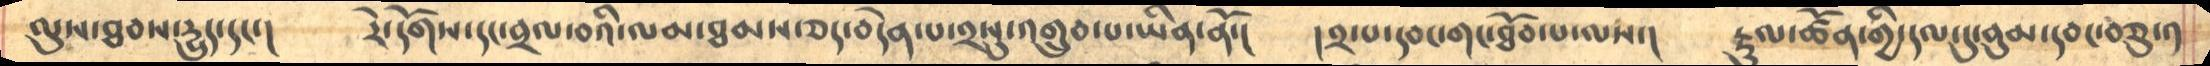ལུས་ཐབས་དྱུད་དང་།       རེ་དོགས་དང་བྲལ་བའི་ལམ་ཐམས་ཅད་བདེན་པ་༢སུ་འགྲུབ་པ་ཡིན་ནོ་།      །༢་པ་དབང་གང་ཐོབ་པ་ལས་།     རྟུལ་ཚོན་གྱི་དལ་དུ་བུམ་དབང་བཅུ་༡
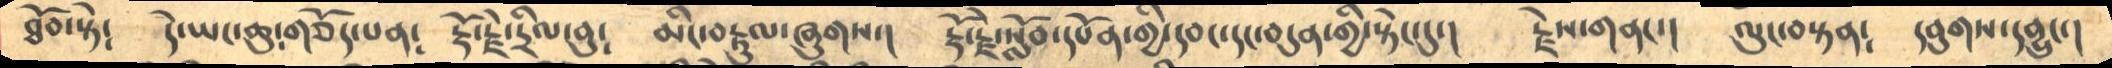ཐོབ་སྟེ༴       དེ་ཡང་ཆུ༴ གཅོད་པན༴     རྡོ་རྗེ་དྲིལ་བུ༴      མིང་བརྟུལ་ཞུགས་།     རྡོ་རྗེ་སློབ་དཔོན་གྱི་དབང་དང་བདུན་གྱི་སྟེང་དུ་།    རྗེས་གནང་།    ལུང་བསྟན༴   དབུགས་དབྱུང་།
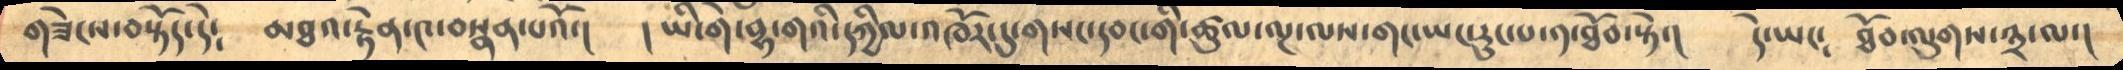གཟེངས་བསྟོད་དེ༴        མཐའ་རྟེན་༤་བསྣན་པའོ་།     །ཡི་གེ་བྷ་གའི་དཀྱིལ་འཁོར་དུ་གསང་དབང་གི་ཚུལ་ལྔ་ལས་གང་ཡང་རུང་པ་༡་ཐོབ་སྟེ་།     དེ་ཡང༴    ཐོབ་ལུགས་༣་ལ་།
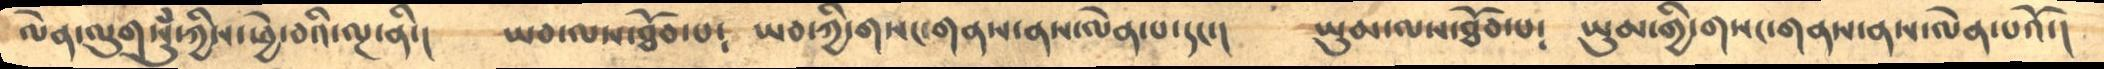ལེན་ལུགསུཾ་ཀྱིས་ཕྱེ་བའི་ལྔ་ནི་།      ཡབ་ལས་ཐོབ་པ༴   ཡབ་ཀྱི་གསང་གནས་ནས་ལེན་པ་དང་།    ཡུམ་ལས་ཐོབ་པ༴   ཡུམ་གྱི་གསང་གནས་ནས་ལེན་པའོ་།
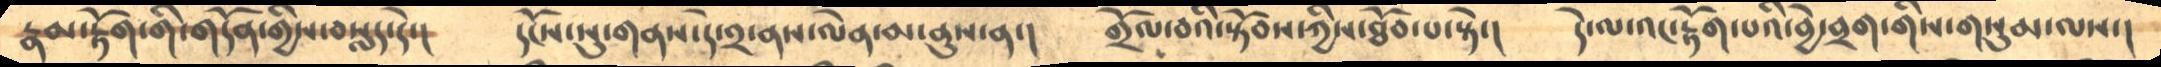རྣམ་རྟོག་གི་གདོན་གྱིས་བསླད་དེ་།    དངོས་སུ་གནས་དེ་༢་ནས་ལེན་མ་ནུས་ན་།     གྲོལ་བའི་སྟོབས་ཀྱིས་ཐོབ་པ་སྟེ་།    དེ་ལ་འང་རྟོག་པའི་བྱེ་བྲག་གིས་གསུམ་ལས་།
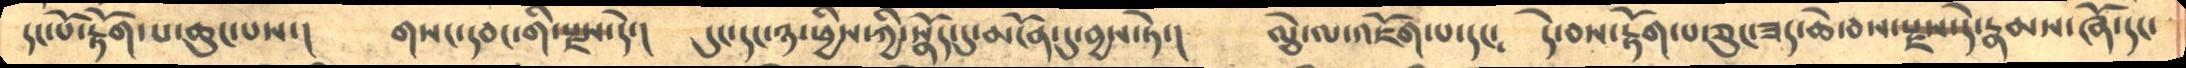དང་པོ་རྟོག་པ་ཆུང་པས་།    གསང་དབང་གི་རྫས་དེ་།     དུང་དང་ཉ་ཕྱིས་ཀྱི་སྣོད་དུ་མངོན་དུ་བྱས་ཏེ་།   ལྕེ་ལ་འཇོག་པ་དང༴    དེ་བས་རྟོག་པ་ཅུང་ཟད་ཆེ་བས་རྫས་དེ་རྣམས་ཞོ་དང་
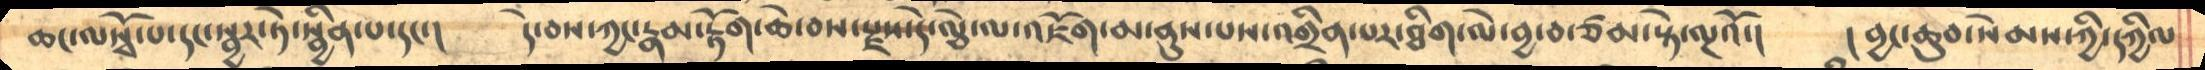ཆང་ལསྭོ་པ་དང་སྦྱར་ཏེ་སྦྱིན་པ་དང་།   དེ་བས་ཀྱང་རྣམ་རྟོག་ཆེ་བས་རྫས་དེ་ལྕེ་ལ་འཇོག་མ་ནུས་པས་འགྲིན་པར་ཐིག་ལེ་བྱ་བ་ཙམ་སྟེ་ལྔའོ་།    །བྱང་ཆུབ་སེམས་ཀྱི་དཀྱིལ
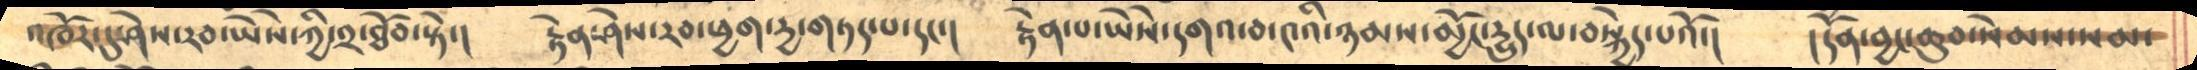འཁོར་དུ་ཤེས་རབ་ཡེེས་ཀྱི་༢་ཐོབ་སྟེ་།    རྟེན་ཤེས་རབ་ཕྱག་དྱ་གཏད་པ་དང་།    རྟེན་པ་ཡཻས་དགའ་བ་༤འི་ཉམས་མྱོང་དྱུད་ལ་བསྐྱེད་པའོ་།   །དོན་བྱང་ཆུབ་སེམས་སམ་
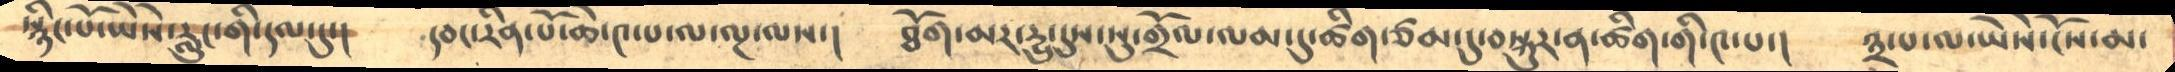སྙིང་པོ་ཡཻས་རླུང་གི་དལ་དུ་།       དབང་རིན་པོ་ཆེ་༤་པ་ལ་ལྔ་ལས་།     ཐོག་མར་དྱུ་དུས་སུ་གྲོལ་ལམ་དུ་ཚིག་ཙམ་དུ་བསྐུར་ན་ཚིག་གི་༤་པ་།   ༣་པ་ལ་ཡཻས་ངོས་མ་
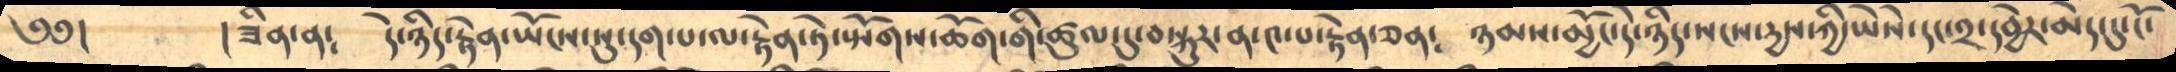༄༅།        །ཟིན་ན༴       དེ་ཉིད་རྟེན་ཡོངས་སུ་དག་པ་ལ་རྟེན་ཏེ་སྤོགས་ཆོག་གི་ཚུལ་དུ་བསྐུར་ན་༤་པ་རྟེན་ཅན༴    ཉམས་མྱོང་དེ་ཉིད་སངས་དྱས་ཀྱི་ཡཻས་དང་༢་དབྱེར་མེད་དུ་ངོ་
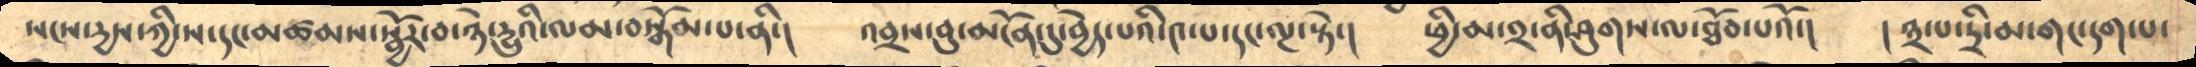སངས་དྱས་ཀྱི་ས་དང་མཚམས་སྦྱོར་བ་ཉེ་དྱུའི་ལམ་བསྒོམ་པ་ནི་།    འབྲས་བུ་མངོན་དུ་བྱེད་པའི་༤་པ་དང་ལྔ་སྟེ་།     ཕྱིམ་༢་ནི་ཤུགས་ལ་ཐོབ་པའོ་།   །༣་པ་དྲི་མ་གང་དག་པ་
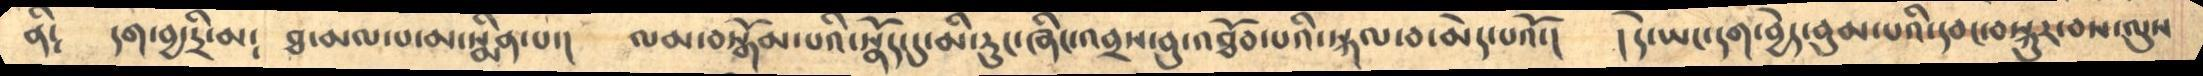ནི༴     དག་བྱ་དྲི་མ༴   ཐ་མལ་པ་མ་སྨིན་པ་།      ལམ་བསྒོམ་པའི་སྣོད་དུ་མི་རུངཞིང་འབྲས་བུ་འཐོབ་པའི་སྐལ་བ་མེད་པའོ་།   །དེ་ཡང་དག་བྱེད་བུམ་པའི་དབང་བསྐུར་བས་ལུས
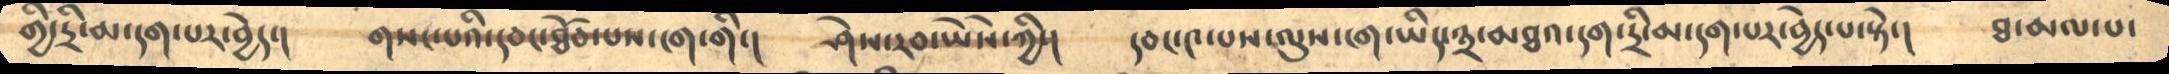གྱི་དྲི་མ་དག་པར་བྱེད་།     གསང་པའི་དབང་ཐོབ་པས་ངག་གི་།    ཤེས་རབ་ཡཻས་ཀྱི་།     དབང་༤་པས་ལུས་ངག་ཡིད་༣་མཐའ་དག་དྲི་མ་དག་པར་བྱེད་པ་སྟེ་།     ཐ་མལ་པ་
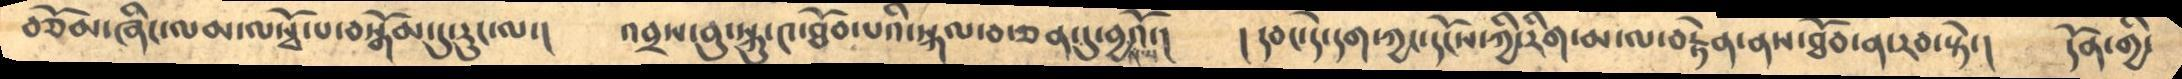བཅོམ་ཞིང་ལམ་ལསྭོ་པ་བསྒོམས་དུ་རུང་ལ་།    འབྲས་བུ་སྐུ་༤་ཐོབ་པའི་སྐལ་བ་ཅན་དུ་བྱའོ་།      །དབང་དེ་དག་ཀྱང་དངོས་ཀྱི་རིག་མ་ལ་བརྟེན་ནས་ཐོབ་ན་རབ་ཏེ་།   དོན་གྱི་
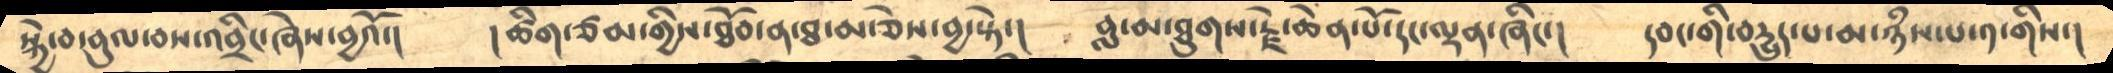སྐྱེ་བ་བུལ་བས་འབྲིང་ཞེས་བྱའོ་།   །ཚིག་ཙམ་གྱིས་ཐོབ་ན་ཐ་མ་ཅེས་བྱ་སྟེ་།    བླ་མ་ཐུགས་རྗེ་ཆེན་པོ་དང་ལྡན་ཞིང་།   དབང་གི་བདྱུད་པ་མ་ཉྃས་པ་༡་གིས་།
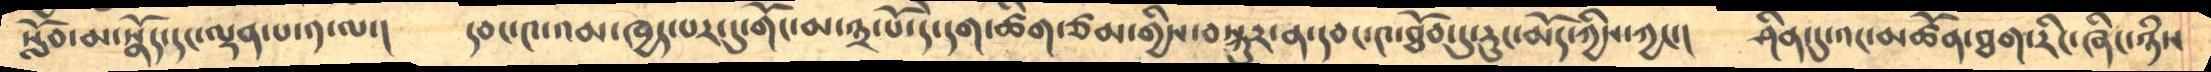སློབ་མ་སྣོད་དང་ལྡན་པ་༡་ལ་།  དབང་༤་འམ་ཁྱད་པར་དུ་གོང་མ་༣་པོ་དེ་དག་ཚིག་ཙམ་གྱིས་བསྐུར་ན་དབང་༤་ཐོབ་དུ་རུང་མོད་ཀྱིས་ཀྱང་།  ཤིན་དུ་འང་མཚོན་ཐག་རིང་ཞིང་ཉྃས
